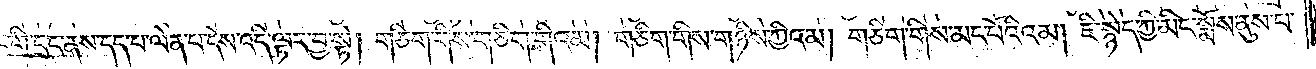གང་དགེ་སློང་གི་དྲུང་ནས་དད་པ་ལེན་པ་དེས་འདི་ལྟར་བྱ་སྟེ། གཅིག་གིས་གཅིག་གིའམ། གཅིག་གིས་གཉིས་ཀྱིའམ། གཅིག་གིས་མང་པོའི་འམ། ཇི་སྙེད་ཀྱི་མིང་སྨོས་ནུས་པ་
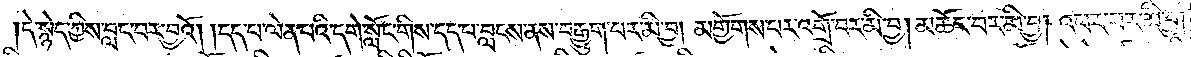དེ་སྙེད་ཀྱིས་བླང་བར་བྱའོ། །དད་པ་ལེན་པའི་དགེ་སློང་གིས་དད་པ་བླངས་ནས་བརྒྱུག་པར་མི་བྱ། མགྱོགས་པར་འགྲོ་བར་མི་བྱ། མཆོང་བར་མི་བྱ། འཕར་བར་མི་བྱ།
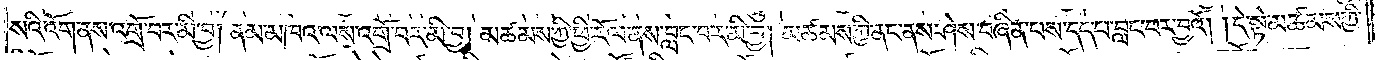སའི་འོག་ནས་འགྲོ་བར་མི་བྱ། ནམ་མཁའ་ལས་འགྲོ་བར་མི་བྱ། མཚམས་ཀྱི་ཕྱི་རོལ་ནས་བླང་བར་མི་བྱ། མཚམས་ཀྱི་ནང་ནས་ཤེས་བཞིན་པས་དད་པ་བླང་བར་བྱའོ། །དེ་སྟེ་མཚམས་ཀྱི་
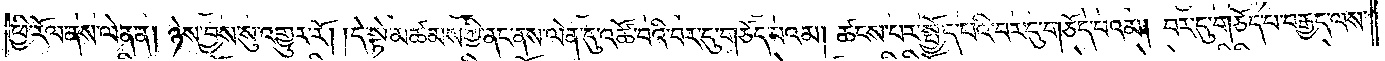ཕྱི་རོལ་ནས་ལེན་ན། ཉེས་བྱས་སུ་འགྱུར་རོ། །དེ་སྟེ་མཚམས་ཀྱི་ནང་ནས་ལེན་དུ་འཚོ་བའི་བར་དུ་གཅོད་པའམ། ཚངས་པར་སྤྱོད་པའི་བར་དུ་གཅོད་པའམ། བར་དུ་གཅོད་པ་བརྒྱད་ལས་
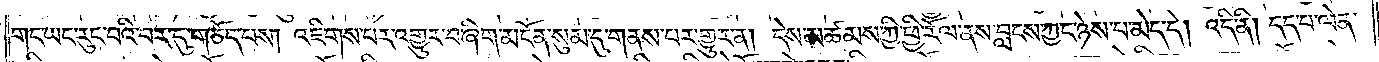གང་ཡང་རུང་བའི་བར་དུ་གཅོད་པས། འཇིགས་པར་འགྱུར་བ་ཞིག་མངོན་སུམ་དུ་གནས་པར་གྱུར་ན། དེས་མཚམས་ཀྱི་ཕྱི་རོལ་ནས་བླངས་ཀྱང་ཉེས་པ་མེད་དེ། འདི་ནི། དད་པ་ལེན་
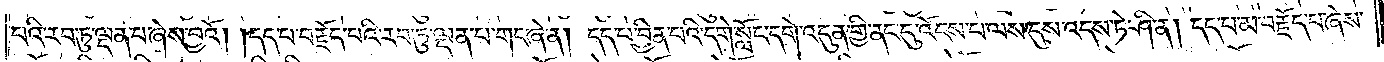པའི་རབ་ཏུ་ལྡན་པ་ཞེས་བྱའོ། །དད་པ་བརྗོད་པའི་རབ་ཏུ་ལྡན་པ་གང་ཞེ་ན། དད་པ་བྱིན་པའི་དགེ་སློང་དགེ་འདུན་གྱི་ནང་དུ་འོངས་པ་ལས་དུས་འདས་ཏེ་ཤི་ན། དད་པ་མ་བརྗོད་པ་ཞེས་
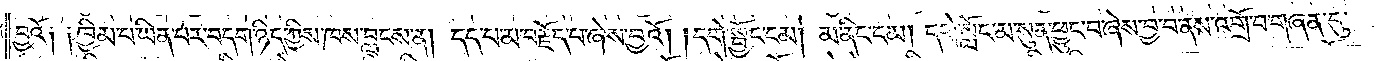བྱའོ༑ ༑ཁྱིམ་པ་ཡིན་པར་བདག་ཉིད་ཀྱིས་ཁས་བླངས་ན། དད་པ་མ་བརྗོད་པ་ཞེས་བྱའོ། །དགེ་སྦྱོང་ངམ། མ་ནིང་ངམ། དགེ་སློང་མ་སུན་ཕྱུང་བ་ཞེས་བྱ་བ་ནས་འགྲོ་བ་གཞན་དུ་
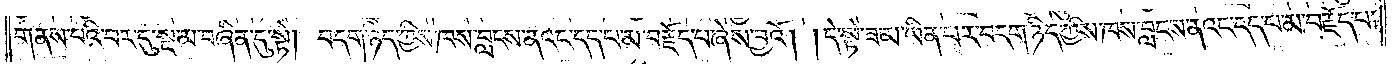གནས་པའི་བར་དུ་སྔ་མ་བཞིན་དུ་སྟེ། བདག་ཉིད་ཀྱིས་ཁས་བླངས་ནའང་དད་པ་མ་བརྗོད་པ་ཞེས་བྱའོ། །དེ་སྟེ་ཟ་མ་ཡིན་པར་བདག་ཉིད་ཀྱིས་ཁས་བླངས་ནའང་དད་པ་མ་བརྗོད་པ་
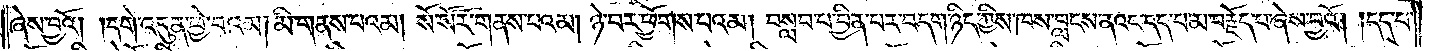ཞེས་བྱའོ། །དགེ་འདུན་ཕྱེ་བའམ། མི་གནས་པའམ། སོ་སོར་གནས་པའམ། ཉེ་བར་ཕྱོགས་པའམ། བསླབ་པ་བྱིན་པར་བདག་ཉིད་ཀྱིས་ཁས་བླངས་ནའང་དད་པ་མ་བརྗོད་པ་ཞེས་བྱའོ། །དད་པ་
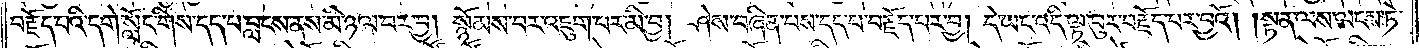བརྗོད་པའི་དགེ་སློང་གིས་དད་པ་བླངས་ནས་མི་ཉལ་བར་བྱ། སྙོམས་པར་འཇུག་པར་མི་བྱ། ཤེས་བཞིན་པས་དད་པ་བརྗོད་པར་བྱ། དེ་ཡང་འདི་ལྟ་བུར་བརྗོད་པར་བྱའོ། །སྟན་ལས་ལངས་ཏེ་
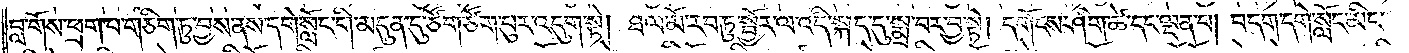བླ་གོས་ཕྲག་པ་གཅིག་ཏུ་བྱས་ནས་དགེ་སློང་གི་མདུན་དུ་ཙོག་ཙོག་པུར་འདུག་སྟེ། ཐལ་མོ་རབ་ཏུ་སྦྱོར་ལ་འདི་སྐད་དུ་སྨྲ་བར་བྱ་སྟེ། དགོངས་ཤིག་ཚེ་དང་ལྡན་པ། བདག་དགེ་སློང་མིང་
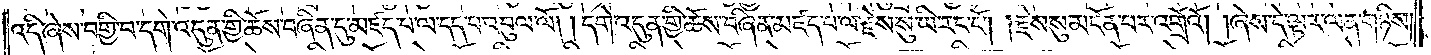འདི་ཞེས་བགྱི་བ་དགེ་འདུན་གྱི་ཆོས་བཞིན་དུ་མཛད་པ་ལ་དད་པ་འབུལ་ལོ། །དགེ་འདུན་གྱི་ཆོས་བཞིན་མཛད་པ་ལ་རྗེས་སུ་ཡི་རང་ངོ༌། །རྗེས་སུ་མངོན་པར་འགྲོའོ། །ཞེས་དེ་ལྟར་ལན་གཉིས།
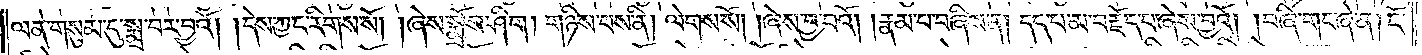ལན་གསུམ་དུ་སྨྲ་བར་བྱའོ། །དེས་ཀྱང་རིགས་སོ། །ཞེས་སྨྲོས་ཤིག། གཉིས་པས་ནི། ལེགས་སོ། །ཞེས་བྱ་བའོ། །རྣམ་པ་བཞིས་ན། དད་པ་མ་བརྗོད་པ་ཞེས་བྱའོ། །བཞི་གང་ཞེ་ན། ངོ་
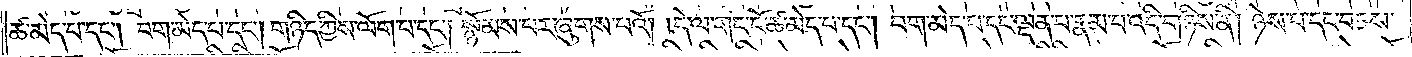ཚ་མེད་པ་དང༌། བག་མེད་པ་དང༌། གཉིད་ཀྱིས་ལོག་པ་དང༌། སྙོམས་པར་ཞུགས་པའོ། །དེ་ལ་གང་ངོ་ཚ་མེད་པ་དང༌། བག་མེད་པ་དང་ལྡན་པ་རྣམ་པ་འདི་གཉིས་ནི། ཉེས་པ་དང་བཅས་
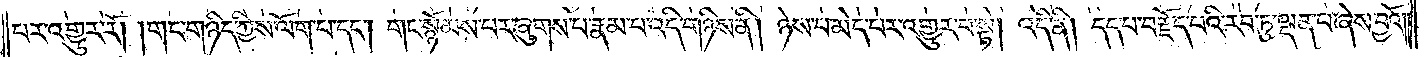བར་འགྱུར་རོ། །གང་གཉིད་ཀྱིས་ལོག་པ་དང༌། གང་སྙོམས་པར་ཞུགས་པ་རྣམ་པ་འདི་གཉིས་ནི། ཉེས་པ་མེད་པར་འགྱུར་པ་སྟེ། འདི་ནི། དད་པ་བརྗོད་པའི་རབ་ཏུ་ལྡན་པ་ཞེས་བྱའོ། །
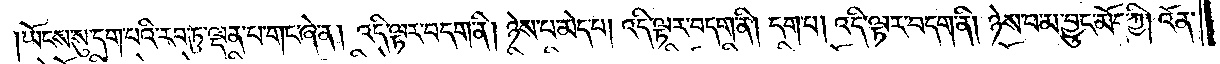ཡོངས་སུ་དག་པའི་རབ་ཏུ་ལྡན་པ་གང་ཞེ་ན། འདི་ལྟར་བདག་ནི། ཉེས་པ་མེད་པ། འདི་ལྟར་བདག་ནི། དག་པ། འདི་ལྟར་བདག་ནི། ཉེས་པ་མ་བྱུང་མོད་ཀྱི། འོན་
